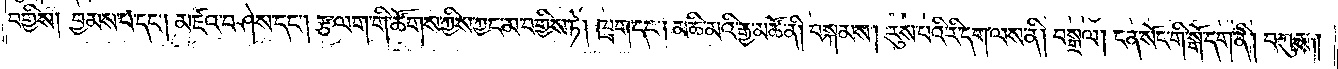བགྱིས། བྱམས་པ་དང༌། མཛའ་བཤེས་དང༌། རྩ་ལག་གི་ཚོགས་ཀྱིས་ཀྱང་མ་བགྱིས་ཏེ། ཁྲག་དང༌། མཆི་མའི་རྒྱ་མཚོ་ནི། བསྐམས། རུས་པའི་རི་དག་ལས་ནི། བསྒྲལ། ངན་སོང་གི་སྒོ་དག་ནི། བཀུམ།
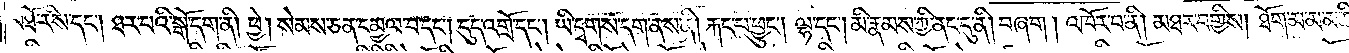མཐོ་རིས་དང༌། ཐར་པའི་སྒོ་དག་ནི། ཕྱེ། སེམས་ཅན་དམྱལ་བ་དང༌། དུད་འགྲོ་དང༌། ཡི་དྭགས་དག་ནས་ནི། རྐང་པ་ཕྱུང༌། ལྷ་དང༌། མི་རྣམས་ཀྱི་ནང་དུ་ནི། བཞག །འཁོར་བ་ནི། མཐར་བགྱིས། ཐོག་མ་མ་མཆིས་
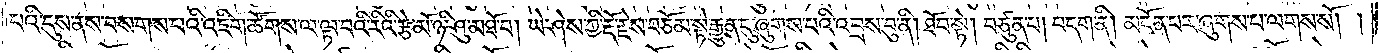པའི་དུས་ནས་བསགས་པའི་འཇིག་ཚོགས་ལ་ལྟ་བའི་རིའི་རྩེ་མོ་ཉི་ཤུ་མཐོ་བ། ཡེ་ཤེས་ཀྱི་རྡོ་རྗེས་བཅོམ་སྟེ་རྒྱུན་དུ་ཞུགས་པའི་འབྲས་བུ་ནི། ཐོབ་སྟེ། བཙུན་པ། བདག་ནི། མངོན་པར་ཞུགས་པ་ལགས་སོ། །
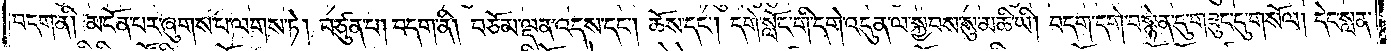བདག་ནི། མངོན་པར་ཞུགས་པ་ལགས་ཏེ། བཙུན་པ། བདག་ནི། བཅོམ་ལྡན་འདས་དང༌། ཆོས་དང༌། དགེ་སློང་གི་དགེ་འདུན་ལ་སྐྱབས་སུ་མཆི་ཡི། བདག་དགེ་བསྙེན་དུ་གཟུང་དུ་གསོལ། དེང་སླན་
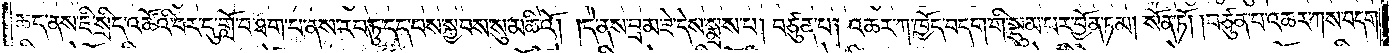ཆད་ནས་ཇི་སྲིད་འཚོའི་བར་དུ་གློ་བ་ཐག་པ་ནས་རབ་ཏུ་དད་པས་སྐྱབས་སུ་མཆིའོ། །དེ་ནས་བྲམ་ཟེ་དེས་སྨྲས་པ། བཙུན་པ། འཆར་ཀ་ཁྱོད་བདག་གི་སྡུམ་པར་བྱོན་ཏམ། སོན་ཏོ། །བཙུན་པ་འཆར་ཀས་བདག་
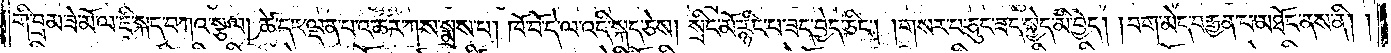གི་བྲམ་ཟེ་མོ་ལ་ཇི་སྐད་བཀའ་སྩལ། ཚེ་དང་ལྡན་པ་འཆར་ཀས་སྨྲས་པ། ཁོ་བོ་དེ་ལ་འདི་སྐད་ཅེས། སྲིང་མོ་རྙིང་པ་ཟད་བྱེད་ཅིང༌། །གསར་པ་ཅུང་ཟད་སྐྱེད་མི་བྱེད། །བག་མེད་བརྒྱན་པ་མཐོང་ནས་ནི། །
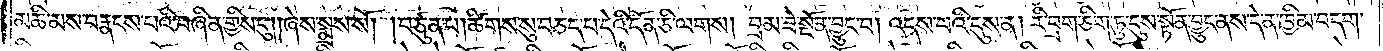མཆི་མས་བརྣངས་པའི་བཞིན་གྱིས་དུ། །ཞེས་སྨྲས་སོ། །བཙུན་པ། ཚིགས་སུ་བཅད་པ་དེའི་དོན་ཅི་ལགས། བྲམ་ཟེ་སྔོན་བྱུང་བ། འདས་པའི་དུས་ན། རི་བྲག་ཅིག་ཏུ་དུས་སྟོན་བྱུང་ནས་དེ་ན་ཁྱིམ་བདག་
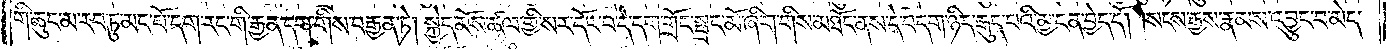གི་ཆུང་མ་རབ་ཏུ་མང་པོ་དག་རང་གི་རྒྱན་དག་གིས་བརྒྱན་ཏེ། སྐྱེད་མོས་ཚལ་གྱི་སར་དོང་བ་དེ་དག་གྲོང་སྤྲང་མོ་ཞིག་གིས་མཐོང་ནས་དེ་བདག་ཉིད་རྒུད་པའི་མྱ་ངན་བྱེད་དོ། །སངས་རྒྱས་རྣམས་འབྱུང་བ་མེད་
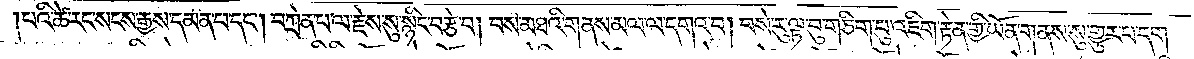པའི་ཚེ་རང་སངས་རྒྱས་དམན་པ་དང༌། བཀྲེན་པ་ལ་རྗེས་སུ་སྙིང་བརྩེ་བ། བས་མཐའི་གནས་མལ་ལ་དགའ་བ། བསེ་རུ་ལྟ་བུ་གཅིག་པུ་འཇིག་རྟེན་གྱི་ཡོན་གནས་སུ་གྱུར་པ་དག་
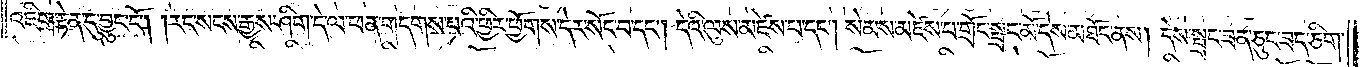འཇིག་རྟེན་དུ་བྱུང་ངོ༌། །རང་སངས་རྒྱས་ཤིག་དེ་ལ་ཕན་གདགས་པའི་ཕྱིར་ཕྱོགས་དེར་སོང་བ་དང༌། དེའི་ལུས་མཛེས་པ་དང༌། སེམས་མཛེས་པ་གྲོང་སྤྲང་མོ་དེས་མཐོང་ནས། དེས་སྤྲང་ཟན་ཅུང་ཟད་ཅིག་
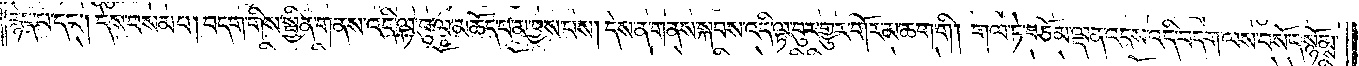རྙེད་པ་དང༌། དེས་བསམ་པ། བདག་གིས་སྦྱིན་གནས་འདི་ལྟ་བུ་ལ་མཆོད་པ་མ་བྱས་པས། དེས་ན་གནས་སྐབས་འདི་ལྟ་བུར་གྱུར་གོར་མ་ཆག་གི། གལ་ཏེ་བཅོམ་ལྡན་འདས་འདི་བདག་ལས་བསོད་སྙོམས་
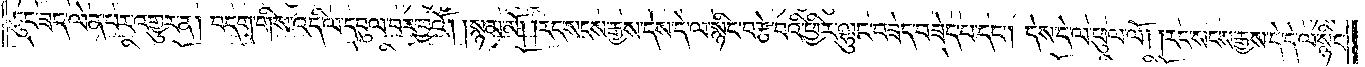ཅུང་ཟད་ལེན་པར་འགྱུར་ན། བདག་གིས་འདི་ལ་དབུལ་བར་བྱའོ། །སྙམ་མོ། །རང་སངས་རྒྱས་དེས་དེ་ལ་སྙིང་བརྩེ་བའི་ཕྱིར་ལྷུང་བཟེད་བཟེད་པ་དང༌། དེས་དེ་ལ་ཕུལ་ལོ། །རང་སངས་རྒྱས་དེ་དེ་ལ་སྙིང་
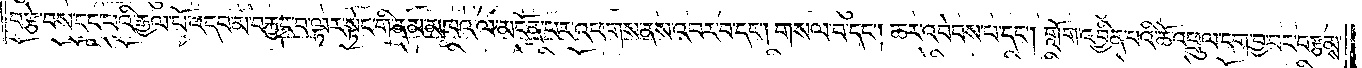བརྩེ་བས་ངང་པའི་རྒྱལ་པོ་འདབ་མ་བརྐྱང་བ་ལྟར་སྟེང་གི་ནམ་མཁའ་ལ་མངོན་པར་འཕགས་ནས་འབར་བ་དང༌། གསལ་བ་དང༌། ཆར་འབེབས་པ་དང༌། གློག་འབྱིན་པའི་ཆོ་འཕྲུལ་དག་བྱ་བར་བརྩམས་
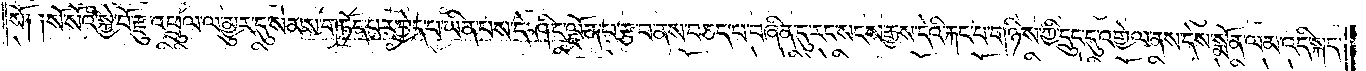སོ། །སོ་སོའི་སྐྱེ་བོ་རྫུ་འཕྲུལ་ལ་མྱུར་དུ་སེམས་གཏོད་པར་བྱེད་པ་ཡིན་པས་དེ་ཤིང་ལྗོན་པ་རྩ་བ་ནས་བཅད་པ་བཞིན་དུ་རང་སངས་རྒྱས་དེའི་རྐང་པ་གཉིས་ཀྱི་དྲུང་དུ་འགྱེལ་ནས་དེས་སྨོན་ལམ་འདི་སྐད་
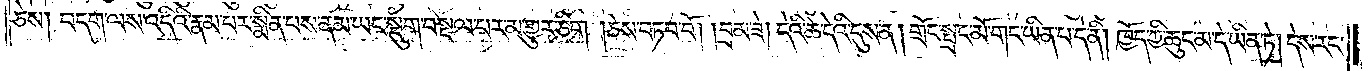ཅེས། བདག་ལས་འདིའི་རྣམ་པར་སྨིན་པས་ནམ་ཡང་སྡུག་བསྔལ་བར་མ་གྱུར་ཅིག །ཅེས་བཏབ་བོ། །བྲམ་ཟེ། དེའི་ཚེ་དེའི་དུས་ན། གྲོང་སྤྲང་མོ་གང་ཡིན་པ་དེ་ནི། ཁྱོད་ཀྱི་ཆུང་མ་དེ་ཡིན་ཏེ། དེས་རང་
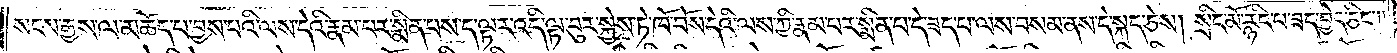སངས་རྒྱས་ལ་མཆོད་པ་བྱས་པའི་ལས་དེའི་རྣམ་པར་སྨིན་པས་ད་ལྟར་འདི་ལྟ་བུར་སྐྱེས་ཏེ་ཁོ་བོས་དེའི་ལས་ཀྱི་རྣམ་པར་སྨིན་པ་དེ་ཟད་པ་ལས་བསམ་ནས་དེ་སྐད་ཅེས། སྲིང་མོ་རྙིང་པ་ཟད་བྱེད་ཅིང༌༎
